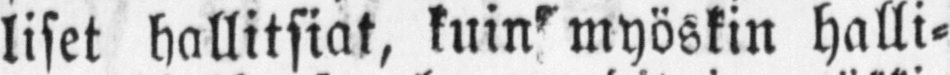liset hallitsiat, halli-
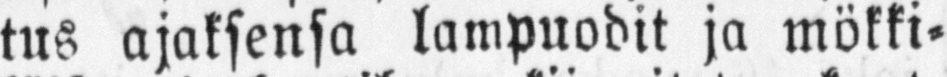tus ajoksensa lampuodit ja mökki-
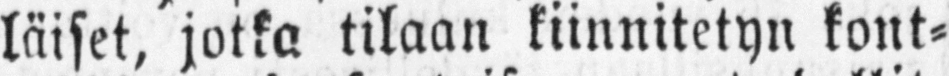läiset, jotka tilaan kiinnitetyn kont-
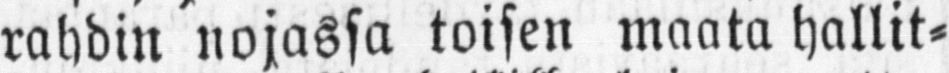rahdin nojassa toisen maata hallit-
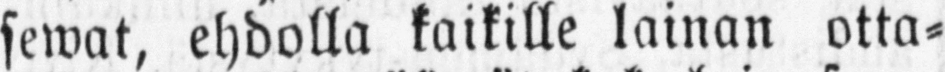sewat, ehdolla kaikille lainan otta-
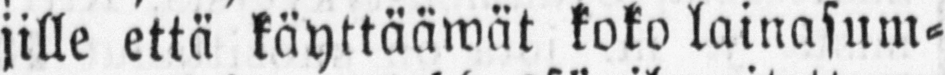jille että käyttääwät koko lainasum-
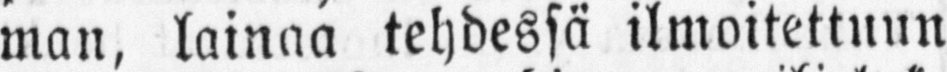man, lainaa tehdessä ilmoitettuun
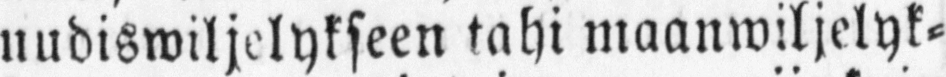uudiswiljelykseen tahi maanwlljelyk-
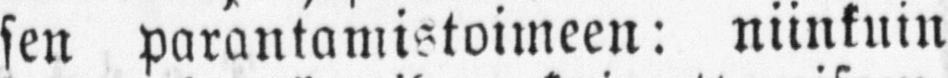sen parantamistoimeen: niinkuin
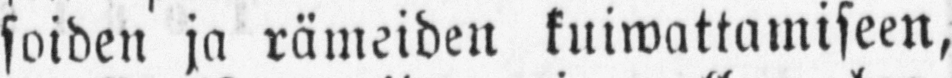soiden ja rämeiden kuiwattamiseen,
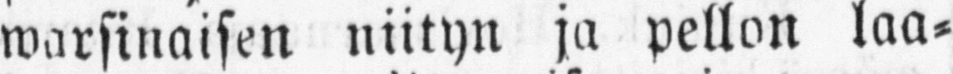warsinaisen niityn ja pellon laa-
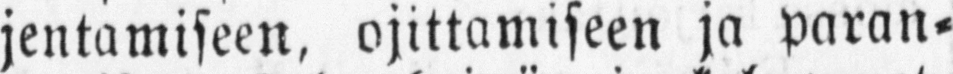jentamiseen, ojittamiseen ja paran-
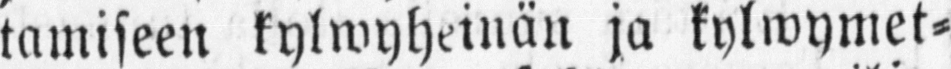tamiseen kylwyheinän ja kylwymet-
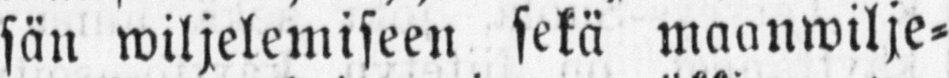sän wiljelemiseen sekä maanwilje-
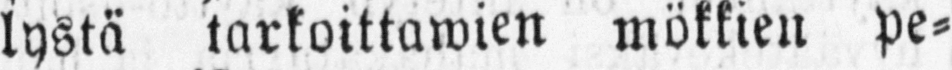lystä tarkoittawien mökkien pe-
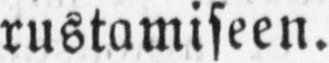rustamiseen.
